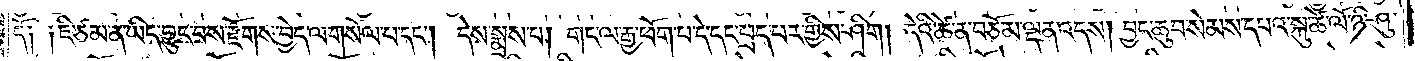དོ༑ ༑ཇི་ཙམ་ན་ཡིད་བྱུང་བས་རྫོགས་བྱེད་ལ་གསོལ་པ་དང༌། དེས་སྨྲས་པ། གང་ལ་རྒྱ་ཕོག་པ་དེ་དང་ཕྲད་པར་གྱིས་ཤིག། དེའི་ཚེ་ན་བཅོམ་ལྡན་འདས། བྱང་ཆུབ་སེམས་དཔའ་སྐུ་ཚེ་ལོ་ཉི་ཤུ་
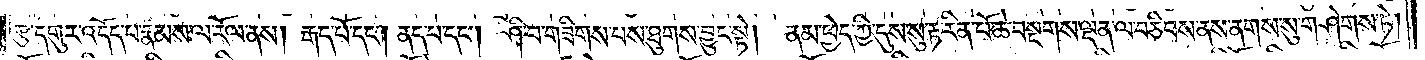རྩ་དགུར་འདོད་པ་རྣམས་ལ་རོལ་ནས། རྒད་པོ་དང༌། ནད་པ་དང༌། ཤི་བ་གཟིགས་པས་ཐུགས་བྱུང་སྟེ། ནམ་ཕྱེད་ཀྱི་དུས་སུ་རྟ་རིན་པོ་ཆེ་བསྔགས་ལྡན་ལ་བཅིབས་ནས་ནགས་སུ་གཤེགས་ཏེ།
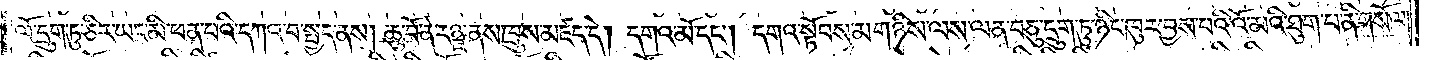ལོ་དྲུག་ཏུ་ཅིར་ཡང་མི་ཕན་པའི་དཀའ་བ་སྤྱད་ནས། ཆུ་བོ་ནེ་རཉྫ་ནས་ཁྲུས་མཛད་དེ། དགའ་མོ་དང༌། དགའ་སྟོབས་མ་གཉིས་ལས་ལན་བཅུ་དྲུག་ཏུ་ཉིང་ཁུར་བྱས་པའི་འོ་མའི་ཐུག་པ་ནི་གསོལ།
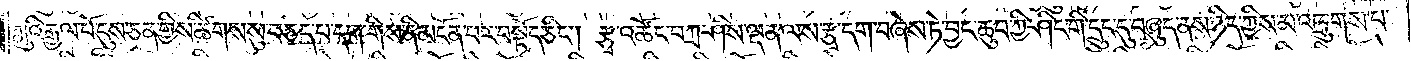ཀླུའི་རྒྱལ་པོ་དུས་ཅན་གྱིས་ཚིགས་སུ་བཅད་པ་དག་གིས་ནི་མངོན་པར་བསྟོད་ཅིང༌། རྩྭ་འཚོང་བཀྲ་ཤིས་ལྡན་ལས་རྩྭ་དག་བཞེས་ཏེ་བྱང་ཆུབ་ཀྱི་ཤིང་གི་དྲུང་དུ་བཞུད་ནས་ཉིད་ཀྱིས་མ་འཁྲུགས་པ་
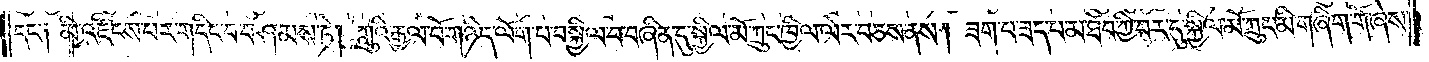དང་༑ མི་འཛིངས་པར་གདིང་བ་བཤམས་ཏེ། ཀླུའི་རྒྱལ་པོ་གཉིད་ལོག་པ་བསྐྱིལ་བ་བཞིན་དུ་སྐྱིལ་མོ་ཀྲུང་ཁྱིལ་ལེར་བཅས་ནས། ཟག་པ་ཟད་པ་མ་ཐོབ་ཀྱི་བར་དུ་སྐྱིལ་མོ་ཀྲུང་མི་གཞིག་གོ་ཞེས་
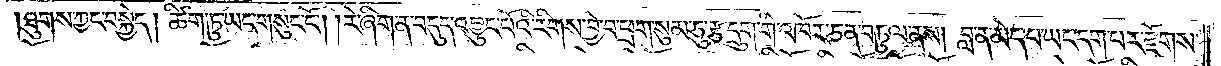ཐུགས་ཀྱང་བསྐྱེད། ཚིག་ཏུ་ཡང་གསུང་ངོ༌། །རེ་ཞིག་ན་བདུད་འབྱུང་པོའི་རིགས་བྱེ་བ་ཕྲག་སུམ་ཅུ་རྩ་དྲུག་གི་འཁོར་ཅན་བཏུལ་ནས། བླ་ན་མེད་པ་ཡང་དག་པར་རྫོགས་
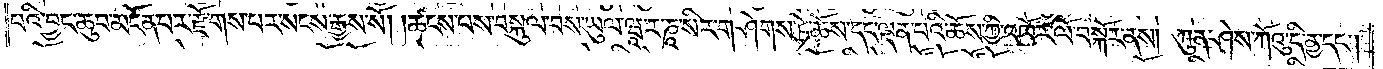པའི་བྱང་ཆུབ་མངོན་པར་རྫོགས་པར་སངས་རྒྱས་སོ། །ཚངས་པས་བསྐུལ་བས་ཡུལ་ཝཱ་ར་ཎཱ་སིར་གཤེགས་ཏེ་ཆོས་དང་ལྡན་པའི་ཆོས་ཀྱི་འཁོར་ལོ་བསྐོར་ནས། ཀུན་ཤེས་ཀོའུ་དི་ནྱ་དང༌།
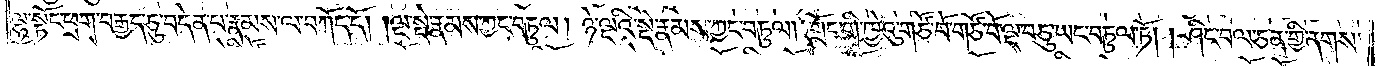ལྷ་སྟོང་ཕྲག་བརྒྱད་ཅུ་བདེན་པ་རྣམས་ལ་བཀོད་དོ། །ལྔ་སྡེ་རྣམས་ཀྱང་བཏུལ། ཉེ་ལྔའི་སྡེ་རྣམས་ཀྱང་བཏུལ། གྲོང་གི་ཁྱེའུ་གཙོ་བོ་གཙོ་བོ་ལྔ་བཅུ་ཡང་བཏུལ་ཏོ། །ཤིང་བལ་ཅན་གྱི་ནགས་
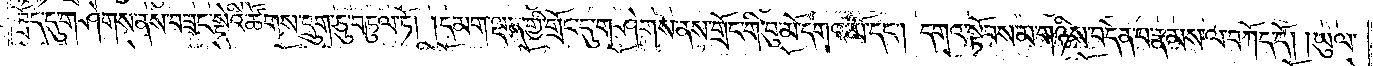ཁྲོད་དུ་གཤེགས་ནས་བཟང་སྡེའི་ཚོགས་དྲུག་ཅུ་བཏུལ་ཏོ། །དམག་ལྡན་གྱི་གྲོང་དུ་གཤེགས་ནས་གྲོང་གི་བུ་མོ་དགའ་མོ་དང༌། དགའ་སྟོབས་མ་གཉིས་བདེན་པ་རྣམས་ལ་བཀོད་དོ། །ཡུལ་
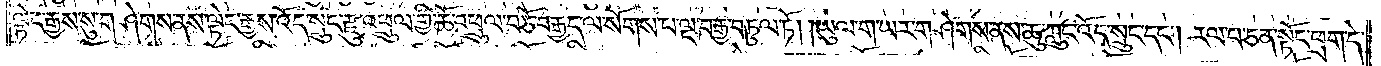ལྟེང་རྒྱས་སུ་གཤེགས་ནས་ལྟེང་རྒྱས་འོད་སྲུང་རྫུ་འཕྲུལ་གྱི་ཆོ་འཕྲུལ་བཅོ་བརྒྱད་ལ་སོགས་པ་ལྔ་བརྒྱ་བཏུལ་ཏོ། །ཡུལ་ག་ཡར་གཤེགས་ནས་ཆུ་ཀླུང་འོད་སྲུང་དང༌། རལ་པ་ཅན་སྟོང་ཕྲག་དེ་
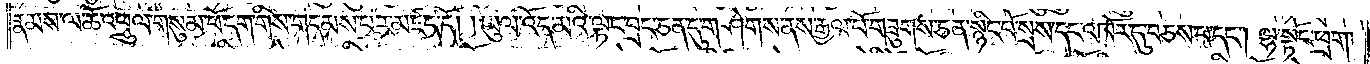རྣམས་ལ་ཆོ་འཕྲུལ་གསུམ་པོ་དག་གིས་གདམས་པར་མཛད་དོ། །ཡུལ་འོད་མའི་ལྟང་བྲང་ཅན་དུ་གཤེགས་ནས་རྒྱལ་པོ་གཟུགས་ཅན་སྙིང་པོ་སྲས་དང་འཁོར་དུ་བཅས་པ་དང༌། ལྷ་སྟོང་ཕྲག་
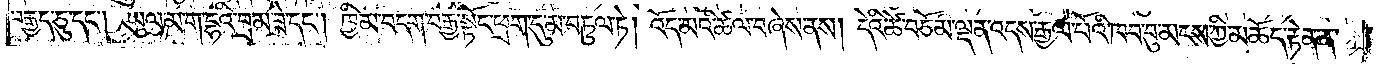བརྒྱད་ཅུ་དང༌། ཡུལ་མ་ག་དྷའི་བྲམ་ཟེ་དང༌། ཁྱིམ་བདག་བརྒྱ་སྟོང་ཕྲག་དུ་མ་བཏུལ་ཏེ། འོད་མའི་ཚལ་བཞེས་ནས། དེའི་ཚེ་བཅོམ་ལྡན་འདས་རྒྱལ་པོའི་ཁབ་བུ་མངས་ཀྱི་མཆོད་རྟེན་ན་
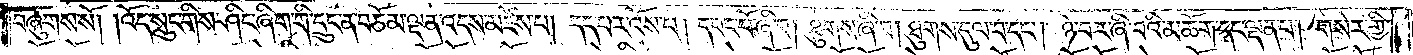བཞུགས་སོ། །འོད་སྲུང་གིས་ཤིང་ཞིག་གི་དྲུང་ན་བཅོམ་ལྡན་འདས་མཛེས་པ། དད་པར་འོས་པ། དབང་པོ་ཞི་བ། ཐུགས་ཞི་བ། ཐུགས་དུལ་བ་དང༌། ཉེ་བར་ཞི་བའི་མཆོག་དང་ལྡན་པ། གསེར་གྱི་
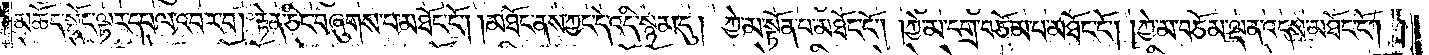མཆོད་སྡོང་ལྟར་དཔལ་འབར་བ། རྟེན་ཅིང་བཞུགས་པ་མཐོང་ངོ༌། །མཐོང་ནས་ཀྱང་དེ་འདི་སྙམ་དུ། ཀྱེ་མ་སྟོན་པ་མཐོང་ངོ༌། །ཀྱེ་མ་དགྲ་བཅོམ་པ་མཐོང་ངོ༌། །ཀྱེ་མ་བཅོམ་ལྡན་འདས་མཐོང་ངོ༌། །
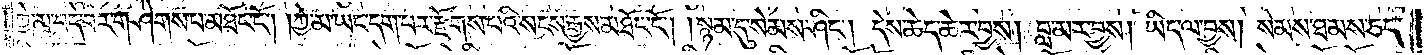ཀྱེ་མ་བདེ་བར་གཤེགས་པ་མཐོང་ངོ༌། །ཀྱེ་མ་ཡང་དག་པར་རྫོགས་པའི་སངས་རྒྱས་མཐོང་ངོ༌། །སྙམ་དུ་སེམས་ཤིང༌། དེས་ཆེད་ཆེར་བྱས། བླ་མར་བྱས། ཡིད་ལ་བྱས། སེམས་ཐམས་ཅད་
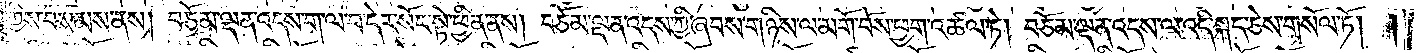ཀྱིས་བསམས་ནས། བཅོམ་ལྡན་འདས་ག་ལ་བ་དེར་སོང་སྟེ་ཕྱིན་ནས། བཅོམ་ལྡན་འདས་ཀྱི་ཞབས་གཉིས་ལ་མགོ་བོས་ཕྱག་འཚལ་ཏེ། བཅོམ་ལྡན་འདས་ལ་འདི་སྐད་ཅེས་གསོལ་ཏོ། །
